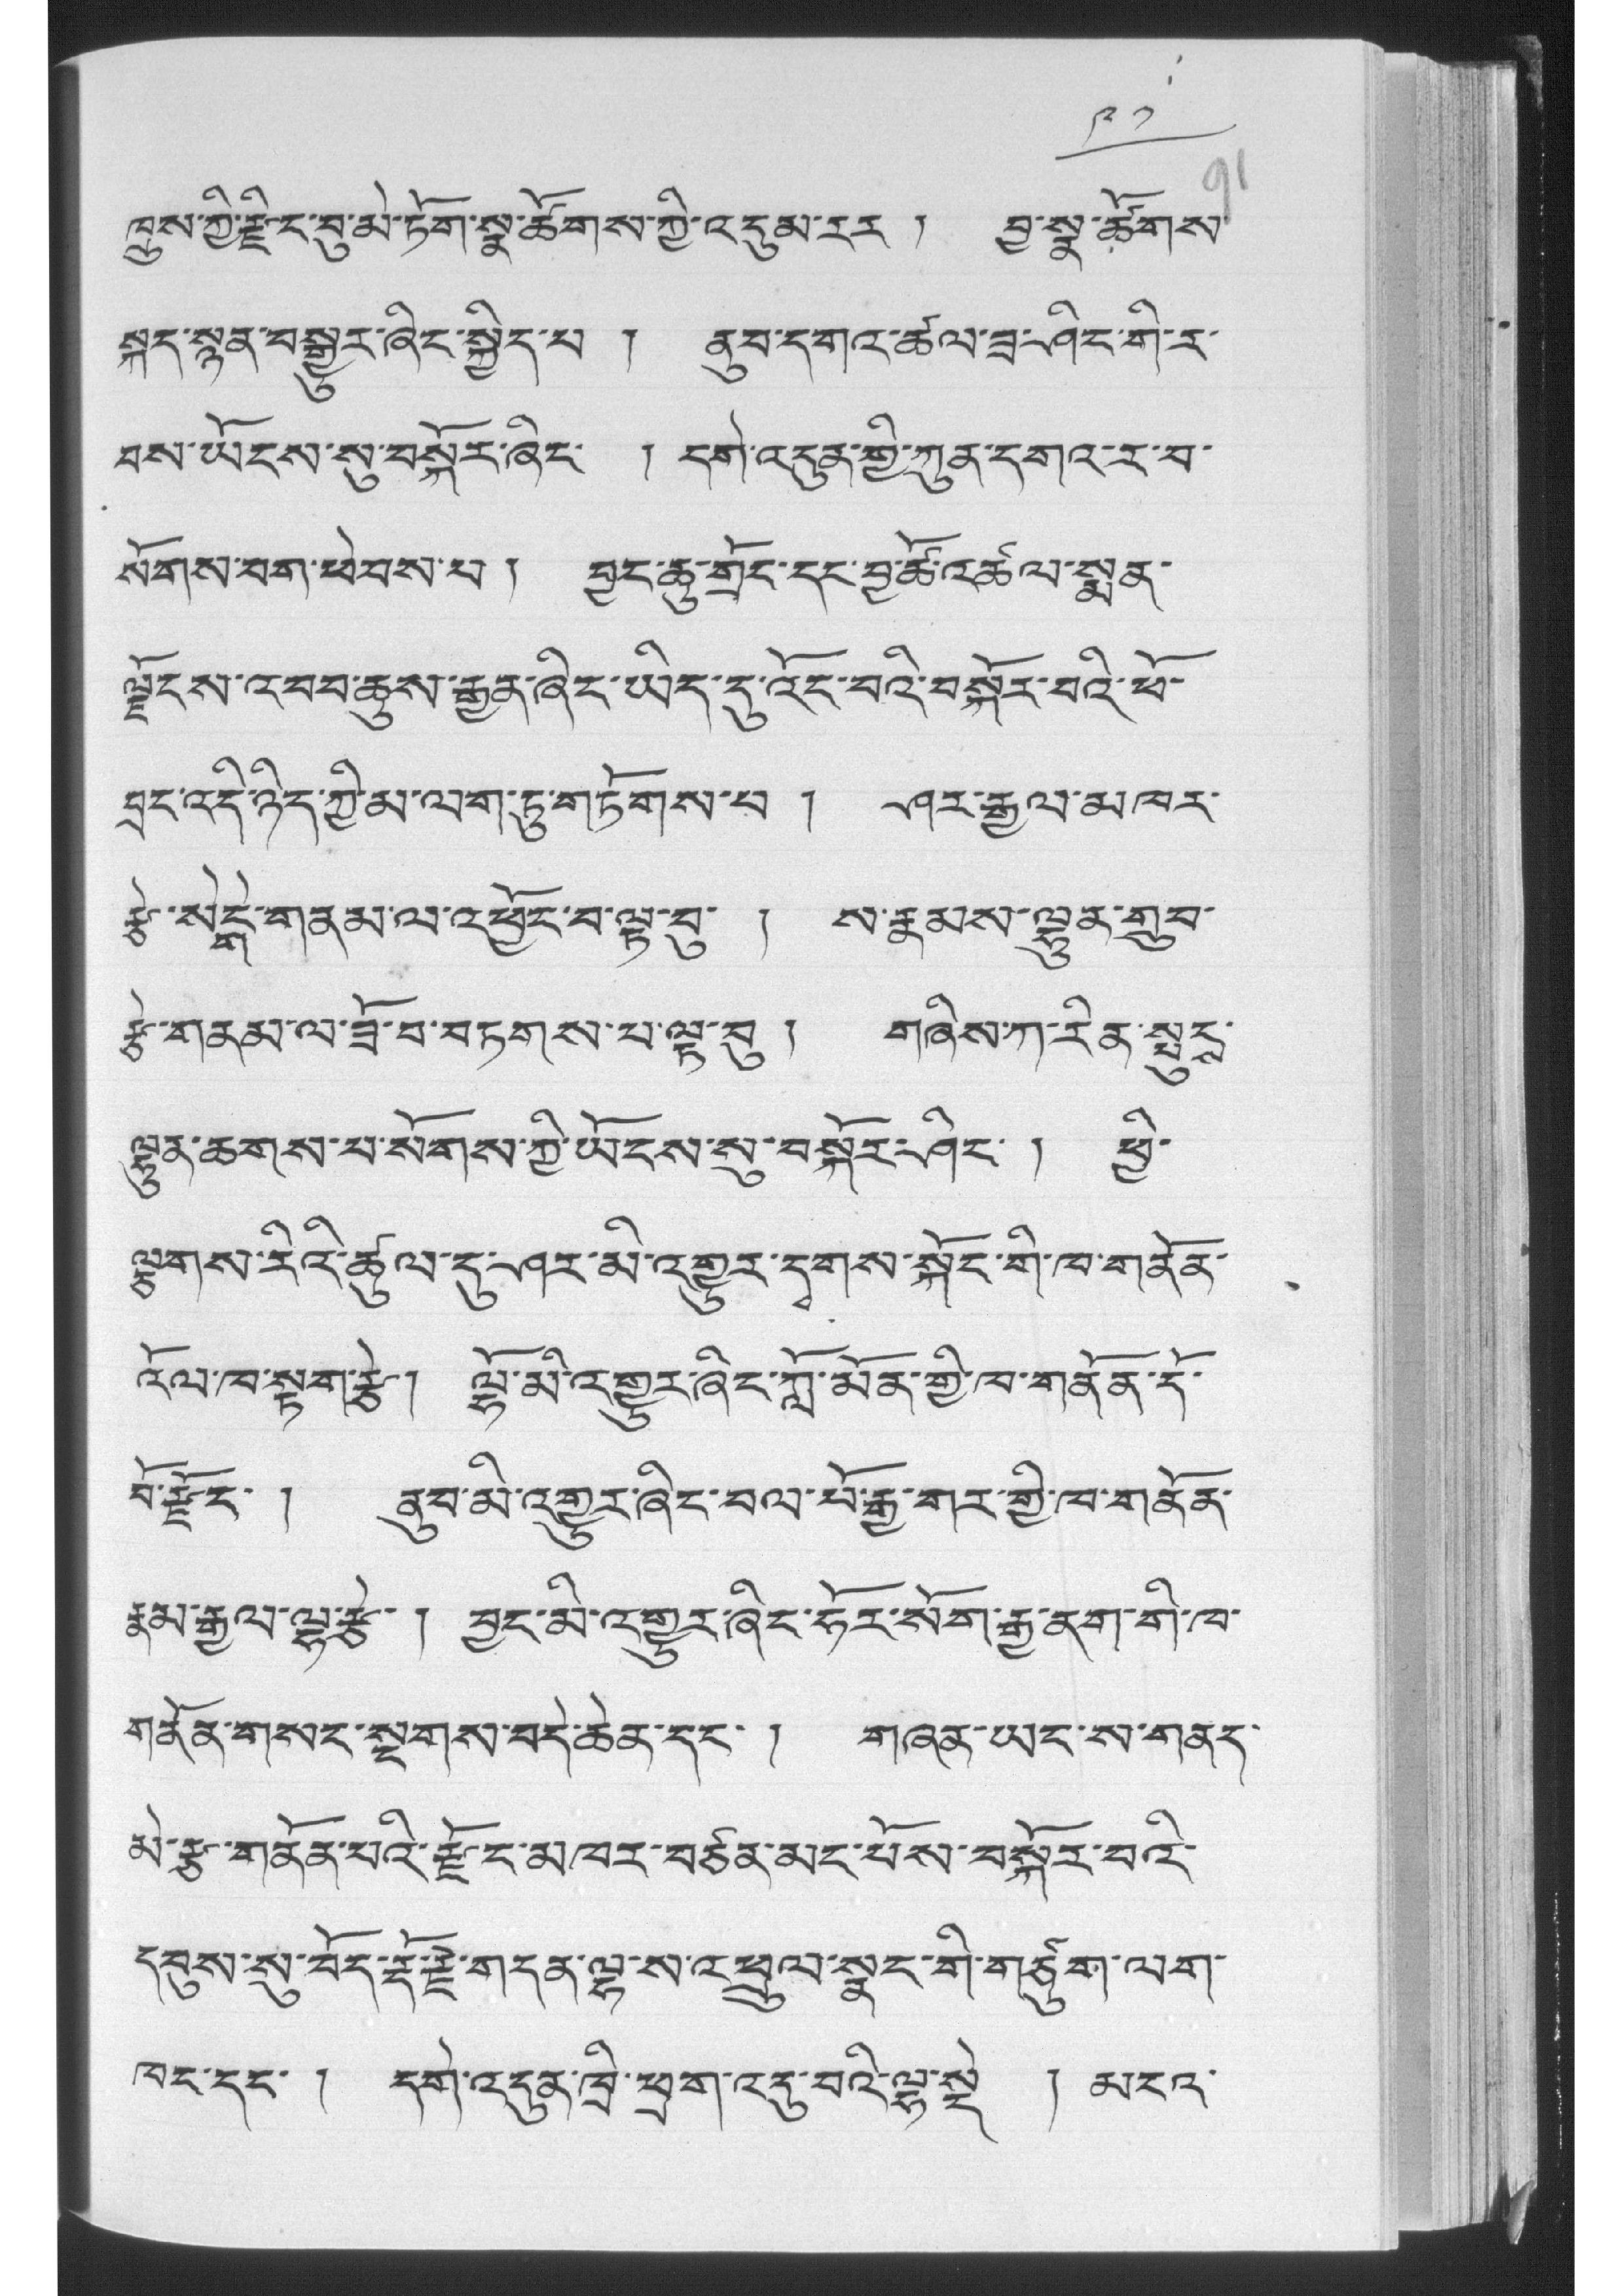༩༡
ཁྲུས་ཀྱི་རྫིང་བུ་མེ་ཏོག་སྣ་ཚོགས་ཀྱི་འདུམ་རར ། བྱ་སྣ་ཚོགས་
སྐད་སྙན་བསྒྱུར་ཞིང་སྐྱེད་པ ། ནུབ་དགའ་ཚལ་ཟ་ཤིང་གི་ར་
བས་ཡོངས་སུ་བསྐོར་ཞིང་ ། དགེ་འདུན་གྱི་ཀུན་དགའ་ར་བ་
སོགས་བག་ཕེབས་པ། བྱད་ཆུ་གྲོང་དང་བྱ་ཚོ་འཚལ་སྨན་
ལྗོངས་འབབ་ཆུས་རྒྱན་ཞིང་ཡིད་དུ་འོང་བའི་བསྐོར་བའི་ཕོ་
བྲང་འདི་ཉིད་ཀྱི་མ་ལག་ཏུ་གཏོགས་པ ། ཤར་རྒྱལ་མཁར་
རྩེ་སེདྒེ་གནམ་ལ་འཕྱོང་བ་ལྟ་བུ་ ། ས་རྣམས་ལྷུན་གྲུབ་
རྩེ་གནམ་ལ་ཟོ་བ་བཏགས་པ་ལྟ་བུ ། གཞིས་ཀ་རིན་སྤུངས་
ལྷུན་ཆགས་པ་སོགས་ཀྱི་ཡོངས་སུ་བསྐོར་ཤིང་ ། ཕྱི་
ལྕགས་རིའི་ཚུལ་དུ་ཤར་མ་འགྱུར་དྭགས་སྐོང་གི་ཁ་གནོན་
འོལ་ཁ་སྟག་རྩེ། ལྷོ་མི་འགྱུར་ཞིང་ཀློ་མོན་གྱི་ཁ་གནོན་དོ་
བོ་རྫོང་ ། ནུབ་མི་འགྱུར་ཞིང་བལ་པོ་རྒྱ་གར་གྱི་ཁ་གནོན་
རྣམ་རྒྱལ་ལྷ་རྩེ་། བྱང་མི་འགྱུར་ཞིང་ཧོར་སོག་རྒྱ་ནག་གི་ཁ་
གནོན་གསང་སྔགས་བདེ་ཆེན་དང་ ། གཞན་ཡང་ས་གནད་
མེ་རྩ་གནོན་པའི་རྫོང་མཁར་བཙན་མང་པོས་བསྐོར་བའི་
དབུས་སུ་བོད་རྡོ་རྗེ་གདན་ལྷ་ས་འཕྲུལ་སྣང་གི་གཙུག་ལག་
ཁང་དང་ ། དགེ་འདུན་ཁྲི་ཕྲག་འདུ་བའི་ལྷ་སྡེ ། མངའ་
